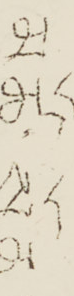མཚོ་སྔོན་
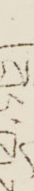(ཟོད་ཁོངས)
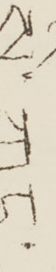སི་ཀང་
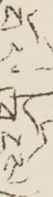(བོད་ཁོངས)
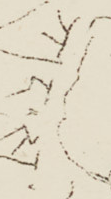ཀང་སུ་
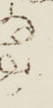ཤན་
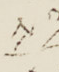ས་
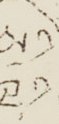ཅི་ལི་
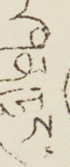ཤན་ཏུང་
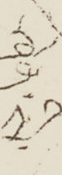ཤེན་སི་
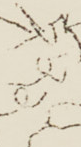ཏོ་ནན་
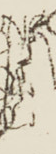ཧོ་ནན་
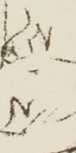ཧུ་པེ་
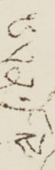ཨན་།
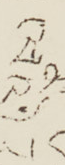ལའི་)རྰ
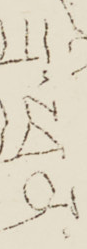ཟི་ཕྲྭན་
